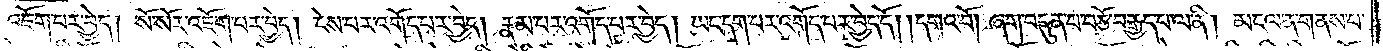འཇོག་པར་བྱེད། སོ་སོར་འཇོག་པར་བྱེད། ངེས་པར་འགོད་པར་བྱེད། རྣམ་པར་འགོད་པར་བྱེད། ཡང་དག་པར་འགོད་པར་བྱེད་དོ། །དགའ་བོ། གཞག་བདུན་པ་བཅོ་བརྒྱད་པ་ལ་ནི། མངལ་ནས་གནས་པ་
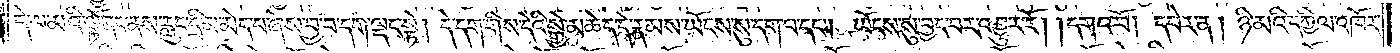དེ་ལ་མའི་ལྟོ་ནང་ནས་རླུང་དྲི་མ་མེད་པ་ཞེས་བྱ་བ་དག་ལྡང་སྟེ། དེ་དག་གིས་དེའི་སྐྱེ་མཆེད་དེ་རྣམས་ཡོངས་སུ་དག་པ་དང༌། ཡོངས་སུ་བྱང་བར་འགྱུར་རོ། །དགའ་བོ། དཔེར་ན། ཉི་མའི་དཀྱིལ་འཁོར་
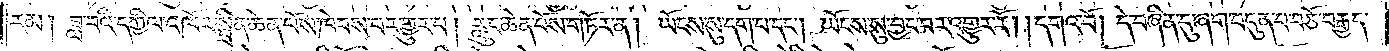རམ། ཟླ་བའི་དཀྱིལ་འཁོར་སྤྲིན་ཆེན་པོས་ཁེབས་པར་གྱུར་པ། རླུང་ཆེན་པོས་གཏོར་ན། ཡོངས་སུ་དག་པ་དང༌། ཡོངས་སུ་བྱང་བར་འགྱུར་རོ། །དགའ་བོ། དེ་བཞིན་དུ་ཞག་བདུན་པ་བཅོ་བརྒྱད་
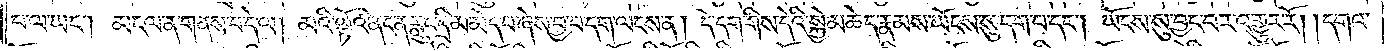པ་ལ་ཡང༌། མངལ་ན་གནས་པ་དེ་ལ། མའི་ལྟོའི་ནང་ན་རླུང་དྲི་མ་མེད་པ་ཞེས་བྱ་བ་དག་ལངས་ན། དེ་དག་གིས་དེའི་སྐྱེ་མཆེད་རྣམས་ཡོངས་སུ་དག་པ་དང༌། ཡོངས་སུ་བྱང་བར་འགྱུར་རོ། །དགའ་
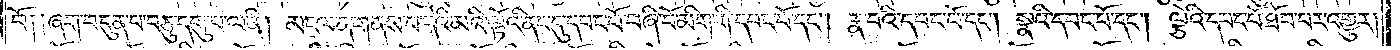བོ༑ ༑ཞག་བདུན་པ་བཅུ་དགུ་པ་ལ་ནི། མངལ་ན་གནས་པ་དེའི་མའི་ལྟོའི་ནང་དུ་དབང་པོ་བཞི་པོ་མིག་གི་དབང་པོ་དང༌། རྣ་བའི་དབང་པོ་དང༌། སྣའི་དབང་པོ་དང༌། ལྕེའི་དབང་པོ་ཐོབ་པར་འགྱུར།
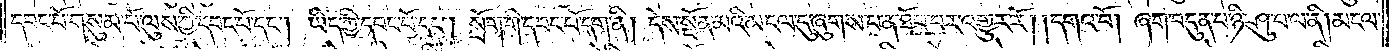དབང་པོ་གསུམ་པོ་ལུས་ཀྱི་དབང་པོ་དང༌། ཡིད་ཀྱི་དབང་པོ་དང༌། སྲོག་གི་དབང་པོ་དག་ནི། དེས་སྔོན་མའི་མངལ་དུ་ཞུགས་པ་ན་ཐོབ་པར་འགྱུར་རོ། །དགའ་བོ། ཞག་བདུན་པ་ཉི་ཤུ་པ་ལ་ནི། མངལ་
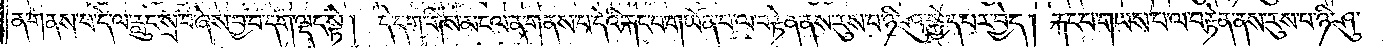ན་གནས་པ་དེ་ལ་རླུང་སྲ་བ་ཞེས་བྱ་བ་དག་ལྡང་སྟེ། དེ་དག་གིས་མངལ་ན་གནས་པ་དེའི་རྐང་པ་གཡོན་པ་ལ་བརྟེན་ནས་རུས་པ་ཉི་ཤུ་སྐྱེད་པར་བྱེད། རྐང་པ་གཡས་པ་ལ་བརྟེན་ནས་རུས་པ་ཉི་ཤུ་
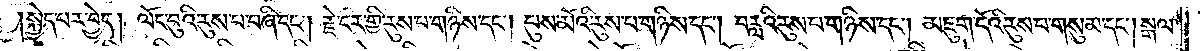སྐྱེད་པར་བྱེད། ལོང་བུའི་རུས་པ་བཞི་དང༌། རྗེ་ངར་གྱི་རུས་པ་གཉིས་དང༌། པུས་མོའི་རུས་པ་གཉིས་དང༌། བརླའི་རུས་པ་གཉིས་དང༌། མཇུག་དོའི་རུས་པ་གསུམ་དང༌། སྒལ་
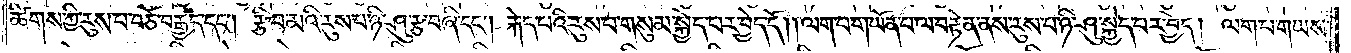ཚིགས་ཀྱི་རུས་པ་བཅོ་བརྒྱད་དང༌། རྩིབ་མའི་རུས་པ་ཉི་ཤུ་རྩ་བཞི་དང༌། རྐེད་པའི་རུས་པ་གསུམ་སྐྱེད་པར་བྱེད་དོ། །ལག་པ་གཡོན་པ་ལ་བརྟེན་ནས་རུས་པ་ཉི་ཤུ་སྐྱེད་པར་བྱེད། ལག་པ་གཡས་
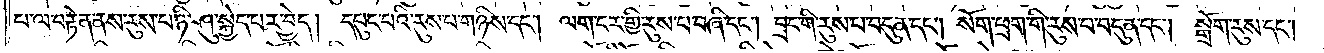པ་ལ་བརྟེན་ནས་རུས་པ་ཉི་ཤུ་སྐྱེད་པར་བྱེད། དཔུང་པའི་རུས་པ་གཉིས་དང༌། ལག་ངར་གྱི་རུས་པ་བཞི་དང༌། བྲང་གི་རུས་པ་བདུན་དང༌། སོག་ཕྲག་གི་རུས་པ་བདུན་དང༌། སྒྲོག་རུས་དང༌།
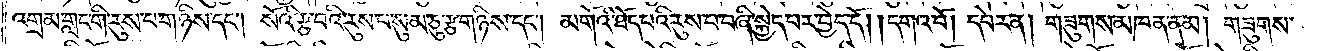འགྲམ་གླང་གི་རུས་པ་གཉིས་དང༌། སོའི་རྩ་བའི་རུས་པ་སུམ་ཅུ་རྩ་གཉིས་དང༌། མགོའི་ཐོད་པའི་རུས་པ་བཞི་སྐྱེད་པར་བྱེད་དོ། །དགའ་བོ། དཔེར་ན། གཟུགས་མཁན་ནམ། གཟུགས་
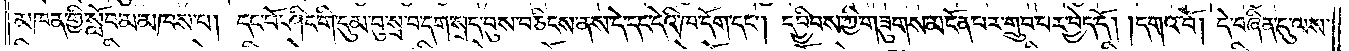མཁན་གྱི་སློབ་མ་མཁས་པ། དང་པོ་ཤིང་གི་དུམ་བུ་སྲ་བ་དག་སྲད་བུས་བཅིངས་ནས་དེ་དང་དེའི་ཁ་དོག་དང༌། དབྱིབས་ཀྱི་གཟུགས་མངོན་པར་གྲུབ་པར་བྱེད་དོ། དགའ་བོ། དེ་བཞིན་དུ་ལས་
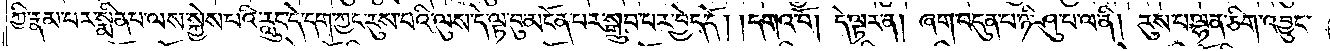ཀྱི་རྣམ་པར་སྨིན་པ་ལས་སྐྱེས་པའི་རླུང་དེ་དག་ཀྱང་རུས་པའི་ལུས་དེ་ལྟ་བུ་མངོན་པར་སྒྲུབ་པར་བྱེད་དོ། །དགའ་བོ། དེ་ལྟར་ན། ཞག་བདུན་པ་ཉི་ཤུ་པ་ལ་ནི། རུས་པ་ལྷན་ཅིག་འབྱུང་
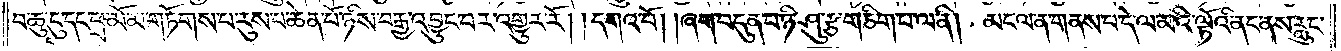བ་ཆུ་ངུ་དང་ཕྲ་མོ་མ་གཏོགས་པ་རུས་པ་ཆེན་པོ་ཉིས་བརྒྱ་འབྱུང་བར་འགྱུར་རོ། །དགའ་བོ། །ཞག་བདུན་པ་ཉི་ཤུ་རྩ་གཅིག་པ་ལ་ནི། མངལ་ན་གནས་པ་དེ་ལ་མའི་ལྟོའི་ནང་ནས་རླུང་
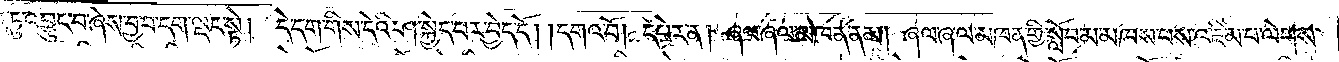ཀུན་ཏུ་འབྱུང་བ་ཞེས་བྱ་བ་དག་ལྡང་སྟེ། དེ་དག་གིས་དེའི་ཤ་སྐྱེད་པར་བྱེད་དོ། །དགའ་བོ། དཔེར་ན། ཞལ་ཞལ་མཁན་ནམ། ཞལ་ཞལ་མཁན་གྱི་སློབ་མ་མཁས་པས་འཇིམ་པ་ལེགས་
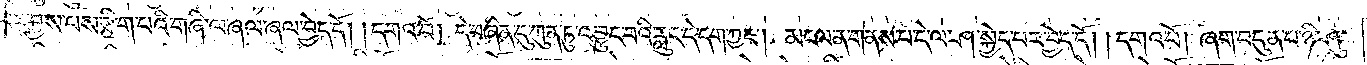པར་བྱས་པས་རྩིག་བའི་ཞི་ལ་ཞལ་ཞལ་བྱེད་དོ། །དགའ་བོ། དེ་བཞིན་དུ་ཀུན་ཏུ་འབྱུང་བ་རླུང་དེ་དག་ཀྱང༌། མངལ་ན་གནས་པ་དེ་ལ་ཤ་སྐྱེས་པར་བྱེད་དོ། །དགའ་བོ། ཞག་བདུན་པ་ཉི་ཤུ་
